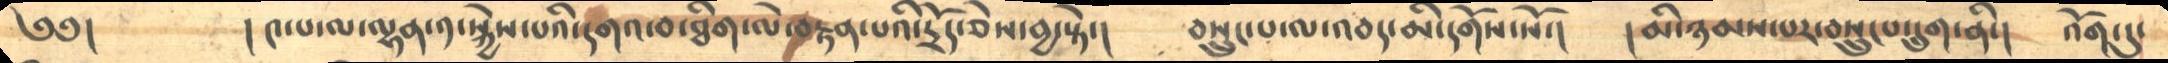༄༅།         ། ༤་པ་ལ་ལྷན་༡་སྐྱེས་པའི་དགའ་བ་ཐིག་ལེ་བརྟན་པའི་དྲོད་ཅེས་བྱ་སྟེ་།      བསྲུང་པ་ལ་འབད་མི་དགོས་སོ་།     །མི་ཉམས་པར་བསྲུངས་དྲུག་ནི་།    འོག་དུ་
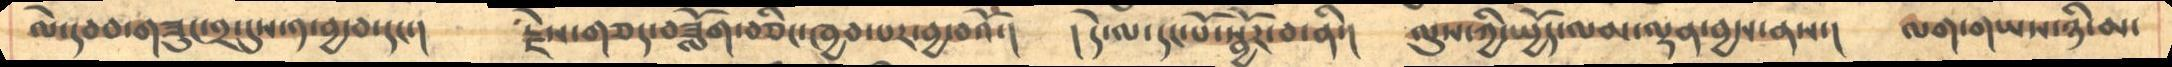ལེ་དབབ་གཟུང་༢་དུས་༡་བྱ་བ་དང་།      རྗེས་གཅད་བཟློག་བཅིང་ཁྱབ་པར་བྱ་བའོ་།    །དེ་ལ་དང་པོ་སྦྱོར་བ་ནི་།   ལུས་ཀྱི་སྤྱོད་ལམ་ལྡན་བྱས་ནས་།    ལག་གཡས་ཉི་མ་
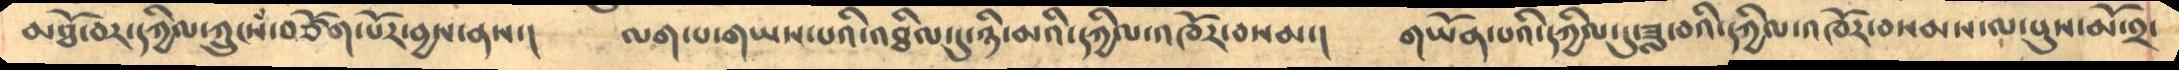མཐོ་བར་དཀྱིལ་ཀྲུངསཾ་བཙོགས་པོར་བྱས་ནས་།     ལག་པ་གཡས་པའི་འཐིལ་དུ་ཉི་མའི་དཀྱིལ་འཁོར་བསམ་།   གཡོན་པའི་དཀྱིལ་དུ་ཟླ་བའི་དཀྱིལ་འཁོར་བསམས་ལ་པུས་མོ་༢་
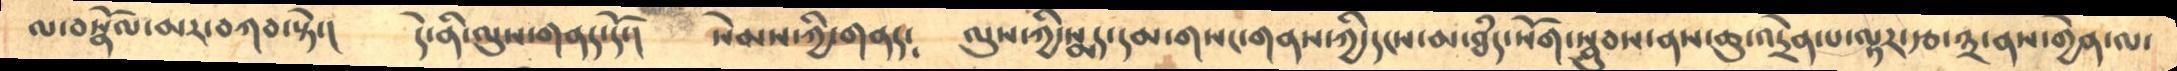ལ་བསྣོལ་མར་བཀབ་སྟེ་།      དེ་ནི་ལུས་གནད་དོ་།    སེམས་ཀྱི་གནད༴  ལུས་ཀྱི་སྨད་དམ་གསང་གནས་ཀྱི་དངས་མ་ཐཾད་སོག་སྦུགས་ནས་ཆུ་འདྲེན་པ་ལྟར་རྩ་༣་ནས་གྱེན་ལ་
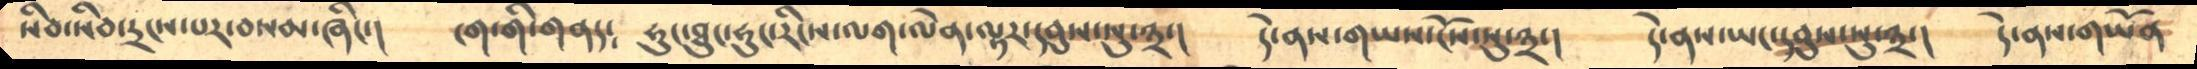སིབ་སིབ་དྲངས་པར་བསམ་ཞིང་།       ངག་གི་གནད༴     ཧུང་ཐུང་ཧུང་རིངས་ལག་ལེན་ལྟར་དབུས་སུ་༣་།     དེ་ནས་གཡས་ངོས་སུ་༣་།    དེ་ནས་ཡང་དབུས་སུ་༣་།     དེ་ནས་གཡོན་
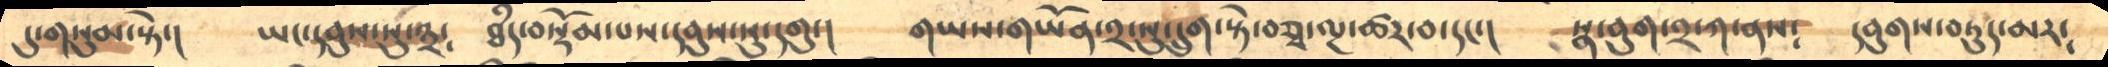དུ་གསུམ་སྟེ་།      ཡང་དབུས་སུ་༣༴   ཐཾད་བསྡོམ་པས་དབུས་སུ་དགུ་།      གཡས་གཡོན་༢་སུ་དྲུག་སྟེ་བཅྭ་ལྔ་ཚར་བ་དང་།    སྣ་བུག་༢་ཀ་ནས༴    དབུགས་བཏུད་མར༴
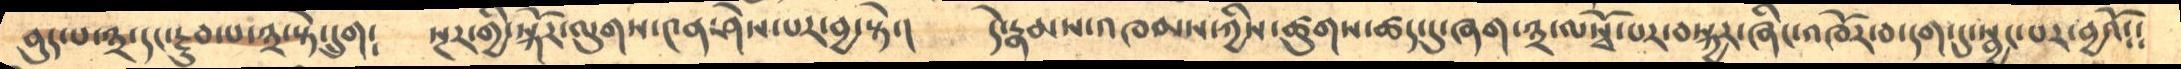བུད་པ༣་དང་རྔུབ་པ་༣་ཏེ་དྲུག༴ སྔར་གྱི་སྐོར་ལུགས་༤ན་ཤེས་པར་བྱ་སྟེ་། དེ་རྣམས་འཁམས་ཀྱིས་ཚུགས་ཚད་དུ་ཞག་༣་ལསྭོ་པར་བསྐྱར་ཞིང་འཁོར་བ་དག་དུ་སྦྱང་པར་བྱའོ༴༴
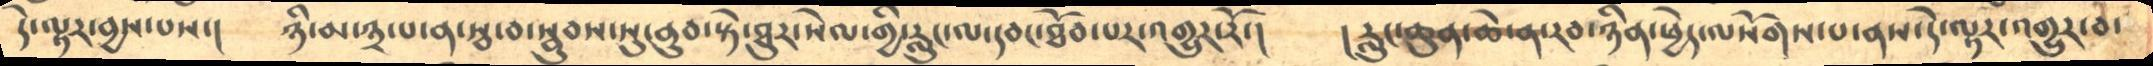དེ་ལྟར་བྱས་པས་། ཉི་མ་༣་པ་ན་སྦ་བ་སྦུབས་སུ་ནུབ་སྟེ་ཐུར་སེལ་གྱི་རླུང་ལ་དབང་ཐོབ་པར་འགྱུར་རོ་། །རླུང་ཆུན་ཆེ་ན་རབ་ཉིན་ཕྱེད་ལསོགས་པ་ནས་དེ་ལྟར་འགྱུར་བ་
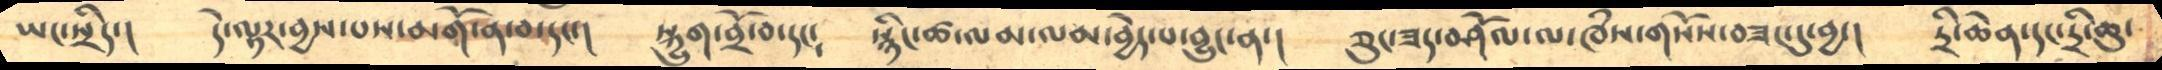ཡང་སྲིད་། དེ་ལྟར་བྱས་པས་མགོ་ན་བ་དང་། སྐྱུག་བྲོ་བ་དང༴ སྙིང་ཚ་ལམ་ལམ་བྱེད་པ་བྱུང་ན་། ཅུང་ཟད་བཤོལ་ལ་ཁྃས་གསོས་བཟང་དུ་བྱ་།   དྲི་ཆེན་དང་དྲི་ཆུ་
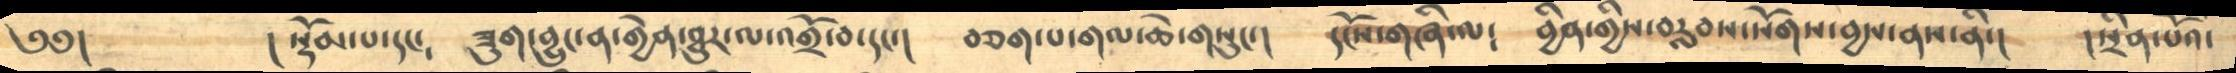༄༅།  །སྡོམ་པ་དང༴  ཟུག་བྱུང་ན་གྱེན་ཐུར་ལ་འགྲོ་བ་དང་། བཅག་པ་གལ་ཆེ་གསུང་། དངོས་གཞི་ལ༴ བྱིན་གྱིས་བརླབས་སོགས་བྱས་ནས་ནི་། །སྲིན་པོའ་
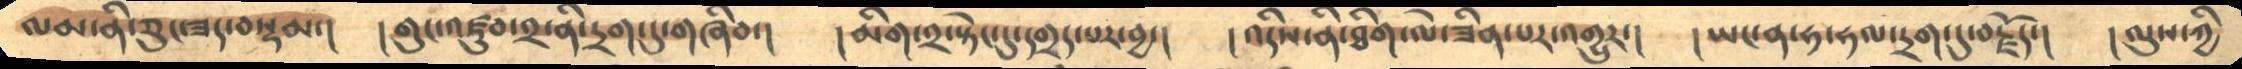ལམ་ནི་ཅུང་ཟད་བསྡམ། །གུང་འཛུབ་༢་ནི་དྲག་དུ་གཞིབ་། །མིག་༢་སྟེང་དུ་དགྲད་པར་བྱ་། །འདིས་ནི་ཐིག་ལེ་ཟིན་པར་འགྱུར་། །ཡང་ན་ཧ་ཧལ་དྲག་དུ་བརྗོད་། །ལུས་ཀྱི
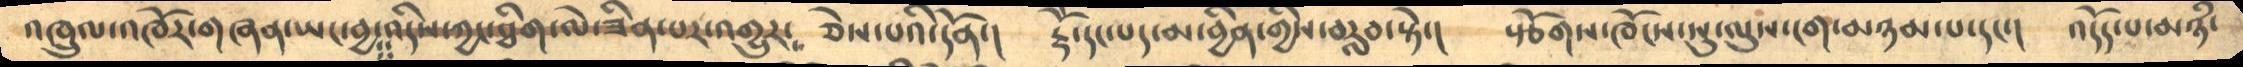འཁྲུལ་འཁོར་གཞན་ཡང་བྱ་འདིས་ཀྱང་ཐིག་ལེ་ཟིན་པར་འགྱུར་     ཅེས་པའི་དོན་།    རྡོེ་དང་པད་མ་བྱིན་གྱིས་བརླབ་སྟེ་།    སྩོགས་ཁོངས་སུ་ལུས་ངག་མཉམ་པ་དང་།    འདོད་པ་མཉཾ་
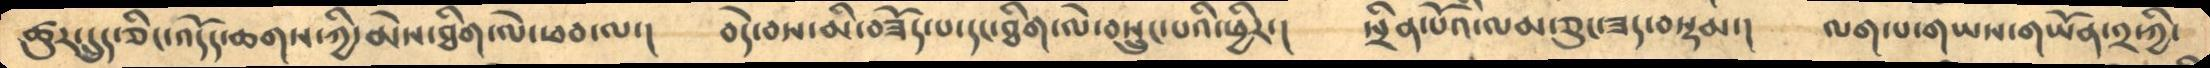ཚུར་དྲུད་ཅིང་འདོད་ཆགས་ཀྱི་མེས་ཐིག་ལེ་ཕབ་ལ་།     བདེ་བས་མི་བཟོད་པ་དང་ཐིག་ལེ་བསྲུང་པའི་ཕྱིར་།    སྲིན་པོའི་ལམ་ཅུང་ཟད་བསྡམ་།་   ལག་པ་གཡས་གཡོན་༢་ཀྱི་
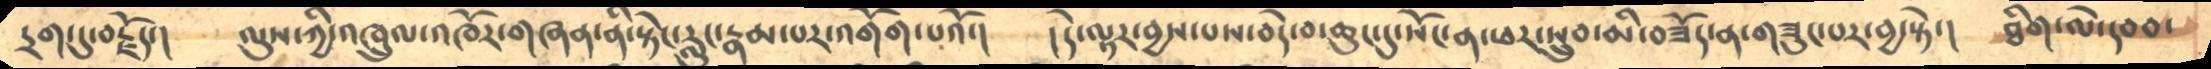དྲག་དུ་བརྗོད་།    ལུས་ཀྱི་འཁྲུལ་འཁོར་གཞན་ནི་སྟེང་རླུང་རྣམ་པར་འགོག་པའོ་།     །དེ་ལྟར་བྱས་པས་བདེ་བ་ཆུང་དུ་སོང་ན་ཕར་སྲུབ་མི་བཟོད་ན་གཟུང་པར་བྱ་སྟེ་།    ཐིག་ལེ་དབབ་
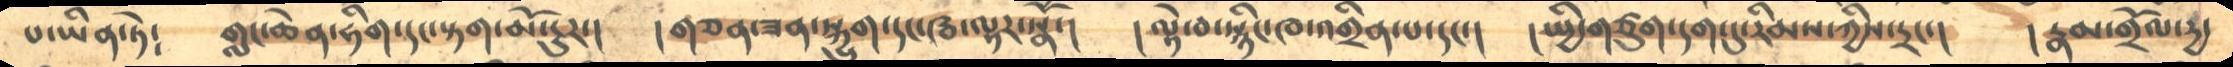པ་ཡིན་ཏེ༴     གླང་ཆེན་ཧིག་དང་སྟག་མོ་ངུར་།      །གཅན་ཟན་སྐྱུག་དང་ཝ་ལྟར་སྣོ་།    །ལྟེ་བ་སྙིང་ཁ་འགྲིན་པ་དང་།     །སྤྱི་གཙུག་དག་དུ་རིམས་ཀྱིས་དྲང་།   །རྣམ་གྲོལ་དྱ་
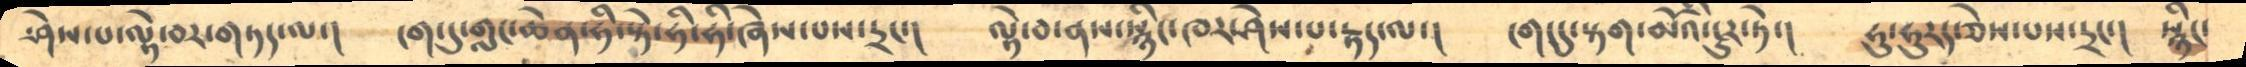ཤེས་པ་ལྟེ་བར་གཏད་ལ་།     ངག་དུ་གླང་ཆེན་ཧི་སྟེ་ཧི་ཧི་ཞེས་པས་དྲང་།      ལྟེ་བ་ནས་སྙིང་ཁར་ཤེས་པ་རྟད་ལ་།      ངག་དུ་སྟག་མོའི་ངུར་ཏེ་།    ཧུ་ཧུརད་ཅེས་པས་དྲང་།    སྙིང་
